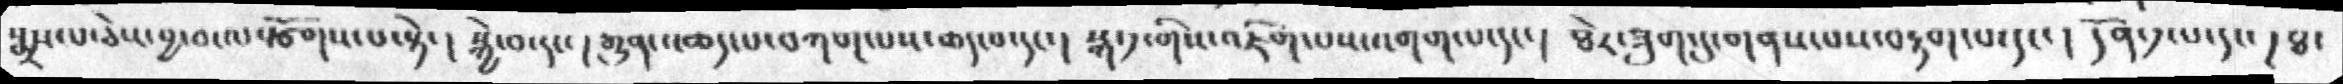སྨྲས་པ་ཅེས་བྱ་བ་ལསྩོགས་པ་སྟེ་།  སྐྱེ་བ་དང་ ། རྒྱུན་འཆད་པ་བཀག་པས་ཆད་པ་དང་། སྐ་༡་གིས་འཇིག་པས་འགག་པ་དང་།  ཐེར་ཟུག་དུ་གནས་པས་བརྟག་པ་དང་།  དོན་༡་པ་དང་། ཐ་
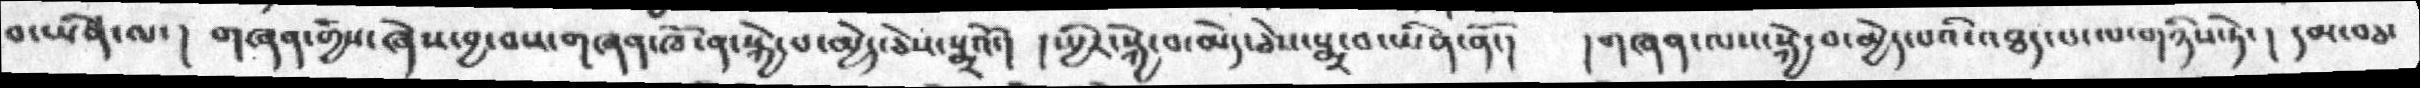བ་ཡིན་ལ་།  གཞན་གྱིས་ཞེས་བྱ་བས་གཞན་ཁོ་ན་སྐྱེ་པ་མྱེད་ཅེས་སྒྲའོ་།  །སྤྱིར་སྐྱེ་བ་མེད་ཅེས་སྨྲ་བ་ཡིན་ནོ་།  ། གཞན་ལས་སྐྱེ་བ་མྱེད་པའི་འཐད་པ་ལ་གཉིས་ཏེ་།  དམ་བཅ་
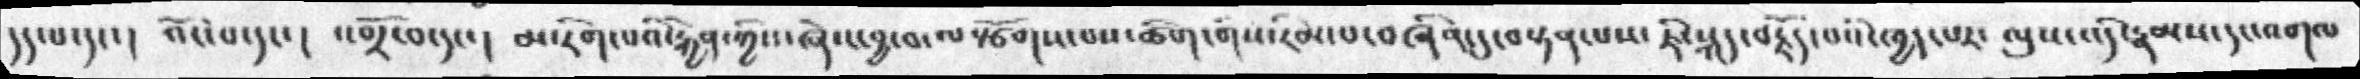དད་པ་དང་།  འོང་པ་དང་།  འགྲོ་བ་དང་།  མ་རིག་པའི་རྐྱེན་ཀྱིས་ཞེས་བྱ་བ་ལསྩོགས་པས་ཚིག་གིས་རིམ་པ་བཞིན་དུ་བསྟན་པས་ ཇི་སྐད་བརྗོད་པའི་ཁྱད་པར་ ལུས་འདི་རྣམས་དང་འགལ
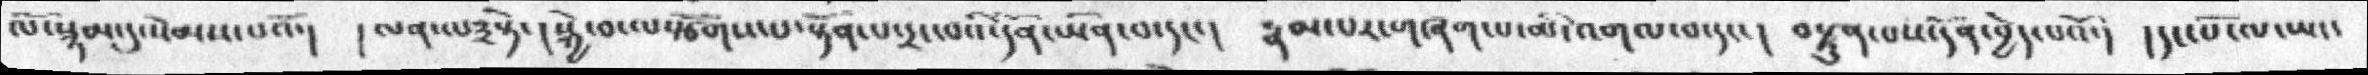ལོ་སྙམ་དུ་སེམས་པའོ་།  ། ལན་ལ༣སྟེ་། སྐྱེ་བ་ལསྩོགས་པ་སྟོན་པ་དྲང་བའི་དོན་ཡིན་པ་དང་། རྣམ་པར་གཞག་པ་མི་འགལ་བ་དང་།  བསྟུན་པས་དོན་བྱེད་པའོ་།  །དང་པོ་ལ་ཡང་
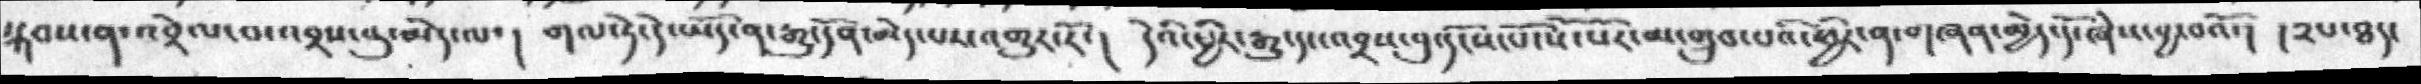སྐབས་ན་འབྲེལ་བ་འབྲས་བུ་མེད་ལ་།  གལ་ཏེ་དེ་ཡོད་ན་རྒྱུ་དོན་མེད་པར་འགྱུར་རོ་།  དེའི་ཕྱིར་རྒྱུ་དང་འབྲས་བུ་དངོས་པོ་སོ་སོར་མ་གྲུབ་པའི་ཕྱིར་ན་གཞན་མྱེད་དོ་ཞེས་བྱ་བའོ་། །༢པ་ཐད་
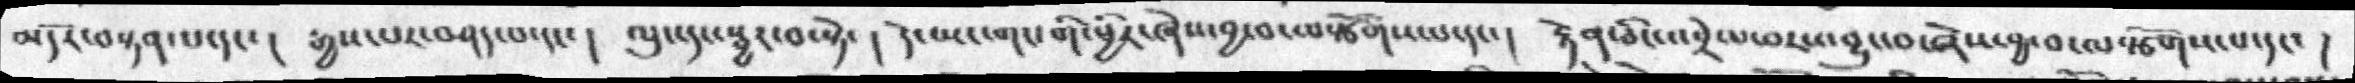མདོར་བསྟན་པ་དང་།  རྒྱས་པར་བཤད་པ་དང་། ལུས་དང་སྦྱར་བ་སྟེ་། དེ་ཡང་གང་གི་ཕྱིར་ཞེས་བྱ་བ་ལསྩོགས་པ་དང་།  རྟེན་ཅིང་འབྲེལ་བར་འབྱུང་བ་ཞེས་བྱ་བ་ལསྩོགས་པ་དང་།
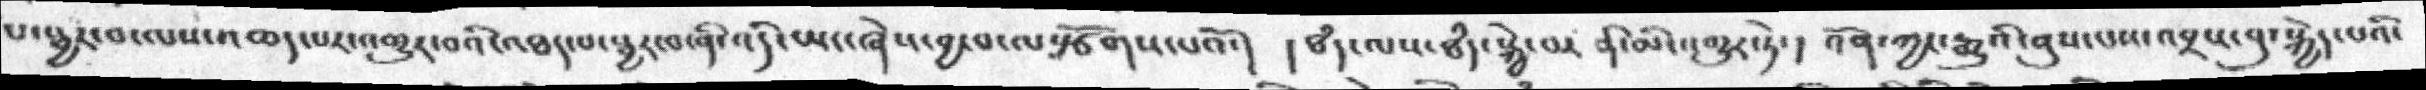པ་སྦྱར་བ་ལས་འཆད་པར་འགྱུར་བའི་འཐད་པ་སྦྱར་བ་ནི་འདི་ཡང་ཞེས་བྱ་བ་ལསྩོགས་པའོ་།  །ཐདཾ་ལས་ཐདཾ་སྐྱེ་བར་ནི་མི་འགྱུར་ཏེ་།  འོན་ཀྱང་རྒྱུའི་ནུས་པས་འབྲས་བུ་སྐྱེད་པའི་
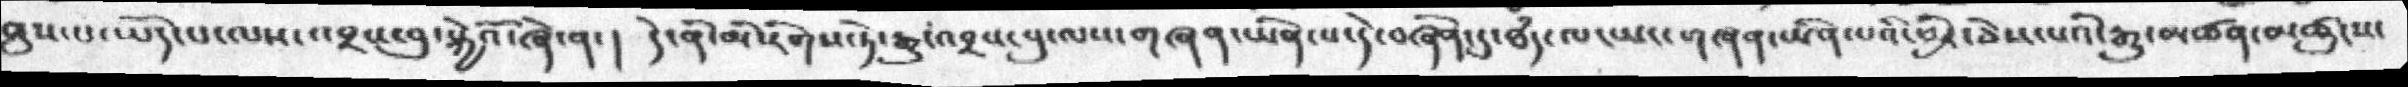ནུས་པ་ཡོད་པ་ལས་འབྲས་བུ་སྐྱེའོ་ཞེ་ན་། དེ་ནི་མི་རིགས་ཏེ་རྒྱུ་འབྲས་བུ་ལས་གཞན་ཡིན་པ་དེ་བཞིན་དུ་ཐདཾ་ལ་ཡང་གཞན་ཡིན་པའི་ཕྱིར་ཅེས་པའི་རྒྱུ་མཚན་མཚུངས་
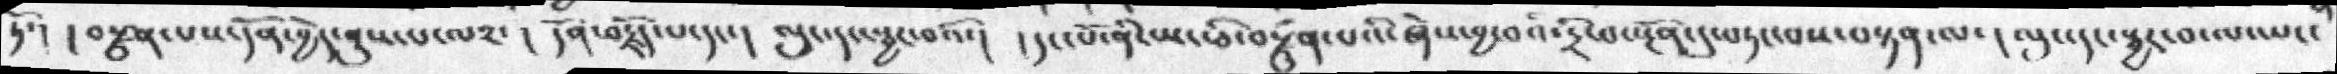ཏོ་། ། བསྫུན་པས་དོན་བྱེད་ནུས་པ་ལ༢་ ། དོན་བརྗོད་པ་དང་།  ལུང་དང་སྦྱར་བའོ་།  །དང་པོ་ནི་ཡང་ཅི་བསྫུན་པའི་ཞེས་བྱ་བའི་དྲི་བ་སྔོན་དུ་བཏང་བས་བསྟན་ལ་།  ལུང་དང་སྦྱར་བ་ལ་ཡང་
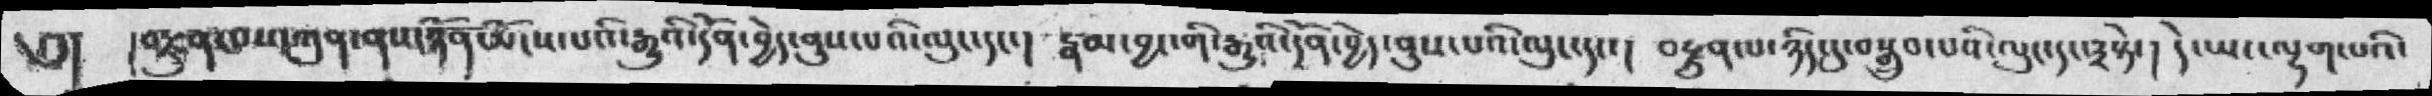༄། །བརྫུན་བས་ཀུན་ནས་ཉོན་མོངས་པའི་རྒྱུའི་དོན་བྱེད་ནུས་པའི་ལུང་དང་།  རྣམ་བྱང་གི་རྒྱུའི་དོན་བྱེད་ནུས་པའི་ལུང་དང་།  བརྫུན་པ་ཉིད་དུ་བསྒྲུབ་པའི་ལུང་དང་༣སྟེ་།  དེ་ཡང་ལྷག་པའི་
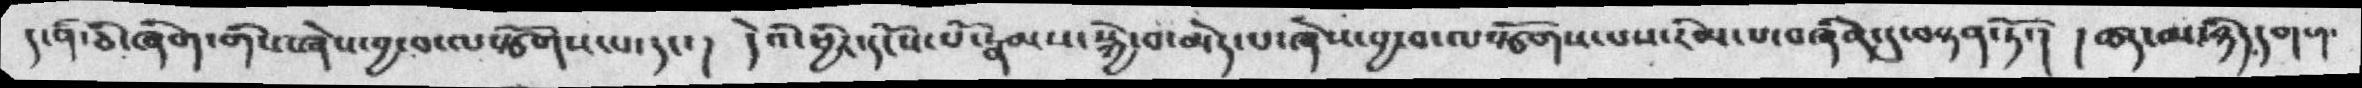ད་ནི་ཅི་ཞིག་གིས་ཞེས་བྱ་བ་ལསྩོགས་པ་དང་།  དེའི་ཕྱིར་དངོས་པོ་རྣམས་སྐྱེ་བ་མེད་པ་ཞེས་བྱ་བ་ལསྩོགས་པས་རིམ་པ་བཞིན་དུ་བསྟན་ཏོ་།  །ཚད་མ་ཉིད་དགག་
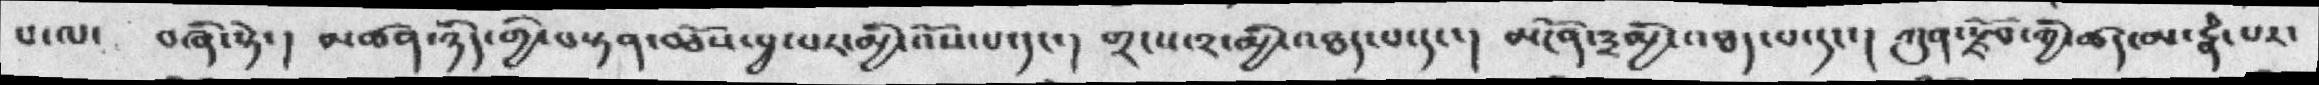པ་ལ་  བཞི་སྟེ་།  མཚན་ཉིད་གྱི་བསྟན་བཅོས་བྱ་བར་མྱི་འོས་པ་དང་།  གྲངས་༢་མྱི་འཐད་པ་དང་། མངོན་༣མྱི་འཐད་པ་དང་། ཀུན་རྫོབ་ཀྱི་ཚད་མ་རྣཾ་པར་
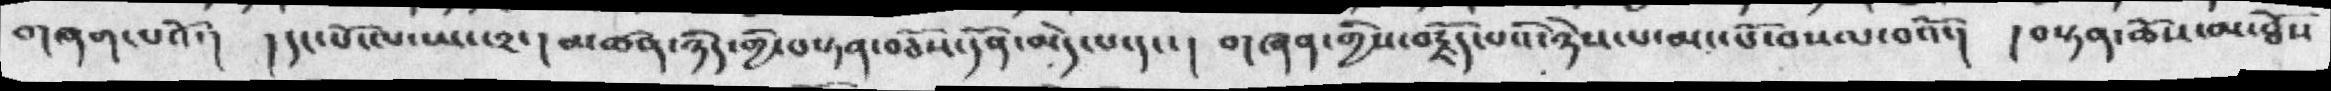གཞག་པའོ་།  །དང་པོ་ལ་ཡང་༢་། མཚན་ཉིད་གྱི་བསྟན་བཅོས་དོན་མེད་པ་དང་། གཞན་གྱིས་བརྗོད་པའི་ཉེས་པ་མང་པོ་བསལ་བའོ་། །བསྟན་ཆོས་མ་ཐོས
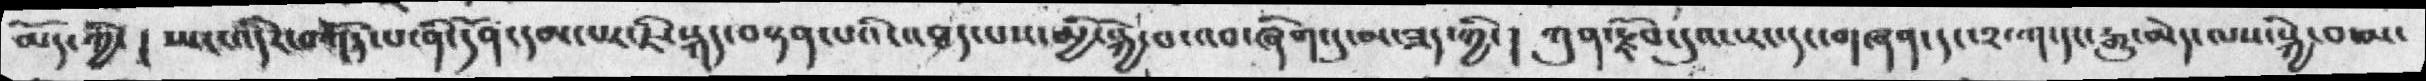མོད་ཀྱི་། ཡང་འདིར་བཀོད་པ་ནི་དོན་དམ་པར་ཇི་སྐད་བསྟན་པའི་།ཐད་པས་མྱི་སྐྱེ་བ་འབ་ཞིག་དུ་མ་ཟད་ཀྱི་།  ཀུན་རྫོབ་དུའང་རང་དང་གཞན་དང་༢་ཀ་དང་རྒྱུ་མེད་ལས་སྐྱེ་བ་མ་
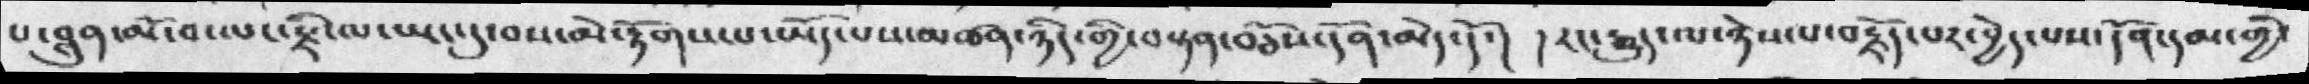པ་ཐུན་མོ་བ་ལ་རྫི་ལ་ཡང་དུ་བས་མེ་རྟོགས་པ་ཡོད་པས་མཚན་ཉིད་གྱི་བསྟན་བཅོས་དོན་མེད་དོ་།  །རང་རྒྱུད་ལ་ཉེས་པ་བརྗོད་པར་བྱེད་པས་དོན་དམ་གྱི་
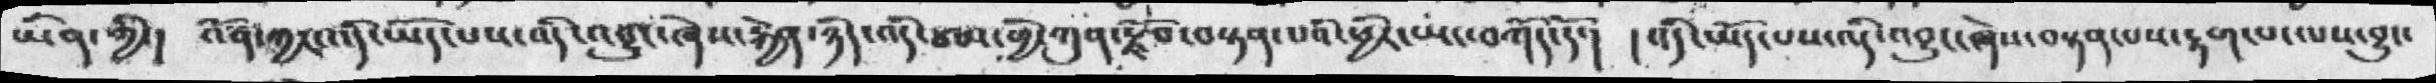ཡིན་གྱི་།  འོན་ཀྱང་འདི་ཡོད་པས་འདི་འབྱུང་ཞེས་རྐྱེན་ཉིད་འདི་ཙམ་གྱི་ཀུན་རྫོབ་བསྟན་པའི་ཕྱིར་ཡང་བཀོད་དོ་། །འདི་ཡོད་པས་འདི་འབྱུང་ཞེས་བསྟན་པས་རྟག་པ་ལས་བྱུང་
